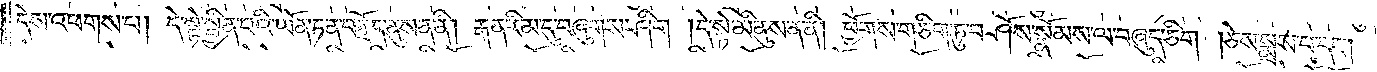དེས་འཕགས་པ། དེ་སྟེ་སྦྱིན་པའི་ཡོན་ཏན་བརྗོད་ནུས་ན་ནི། རྒན་རིམ་དུ་བཞུགས་ཤིག །དེ་སྟེ་མི་ནུས་ན་ནི། ཕྱོགས་གཅིག་ཏུ་བཤོས་སྣོམས་ལ་བཞུད་ཅིག །ཅེས་སྨྲས་པ་དང༌།
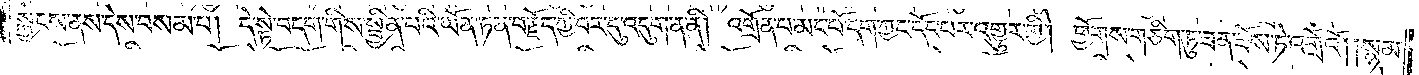སྐྱེངས་ནས་དེས་བསམ་པ། དེ་སྟེ་བདག་གིས་སྦྱིན་པའི་ཡོན་ཏན་བརྗོད་ཀྱི་བར་དུ་འདུག་ན་ནི། འགྲོན་པ་མང་པོ་དག་ཀྱང་དོང་བར་འགྱུར་གྱི། ཕྱོགས་གཅིག་ཏུ་ཟན་ཟོས་ཏེ་འགྲོའོ། །སྙམ་
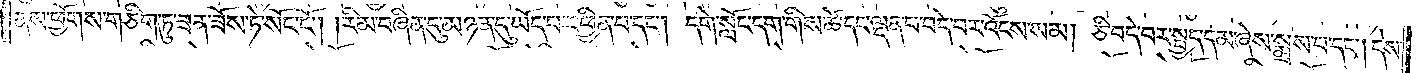ནས་ཕྱོགས་གཅིག་ཏུ་ཟན་ཟོས་ཏེ་སོང་ངོ༌། །རིམ་བཞིན་དུ་མཉན་དུ་ཡོད་པར་ཕྱིན་པ་དང༌། དགེ་སློང་དག་གིས་ཚེ་དང་ལྡན་པ་བདེ་བར་འོངས་སམ། ཅི་བདེ་བར་སྤྱད་དམ་ཞེས་སྨྲས་པ་དང༌། དེས་
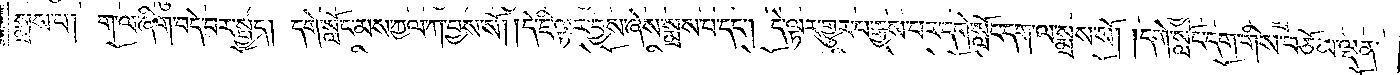སྨྲས་པ། ག་ལ་ཞིག་བདེ་བར་སྤྱད། དགེ་སློང་མས་ཀྱལ་ཀ་བྱས་སོ། །དེ་ཇི་ལྟར་བྱས་ཞེས་སྨྲས་པ་དང༌། དེ་ལྟར་གྱུར་པ་རྒྱས་པར་དགེ་སློང་དག་ལ་སྨྲས་སོ། །དགེ་སློང་དག་གིས་བཅོམ་ལྡན་
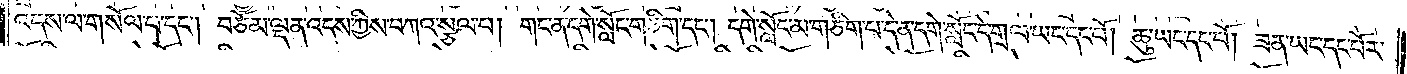འདས་ལ་གསོལ་པ་དང༌། བཅོམ་ལྡན་འདས་ཀྱིས་བཀའ་སྩལ་པ། གང་ན་དགེ་སློང་གཅིག་དང༌། དགེ་སློང་མ་གཅིག་པ་དེ་ན་དགེ་སློང་དེ་གྲལ་ཡང་དང་པོ། ཆུ་ཡང་དང་པོ། ཟན་ཡང་དང་པོར་
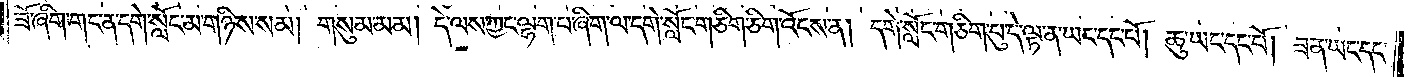ཟོ་ཞིག་གང་ན་དགེ་སློང་མ་གཉིས་སམ། གསུམ་མམ། དེ་ལས་ཀྱང་ལྷག་པ་ཞིག་ལ་དགེ་སློང་གཅིག་ཅིག་འོངས་ན། དགེ་སློང་གཅིག་པུ་དེ་ལྟ་ན་ཡང་དང་པོ། ཆུ་ཡང་དང་པོ། ཟན་ཡང་དང་
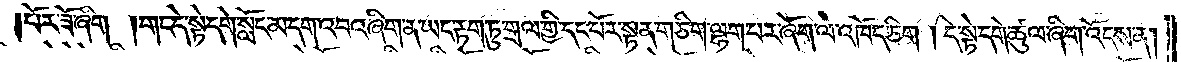པོར་ཟོ་ཞིག །གང་དེ་སྟེ་དགེ་སློང་མ་དག་འབའ་ཞིག་ན་ཡང་རྟག་ཏུ་གྲལ་གྱི་དང་པོར་སྟན་གཅིག་ལྷག་པར་ཞོག་ལ་འཁོད་ཅིག །དེ་སྟེ་དགེ་ཚུལ་ཞིག་འོངས་ན།
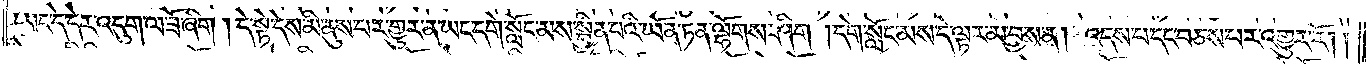ཡང་དེ་དེར་འདུག་ལ་ཟོ་ཞིག །དེ་སྟེ་དེས་མི་ནུས་པར་གྱུར་ན་ཡང་དགེ་སློང་མས་སྦྱིན་པའི་ཡོན་ཏན་ལྷོགས་ཤིག །དགེ་སློང་མས་དེ་ལྟར་མ་བྱས་ན། འདས་པ་དང་བཅས་པར་འགྱུར་རོ། །
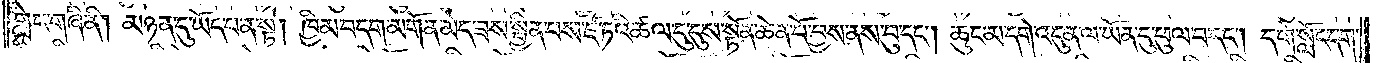གླེང་གཞི་ནི། མཉན་དུ་ཡོད་པ་ན་སྟེ། ཁྱིམ་བདག་མགོན་མེད་ཟས་སྦྱིན་པས་ཛེ་ཏའི་ཚལ་དུ་དུས་སྟོན་ཆེན་པོ་བྱས་ནས་བུ་དང༌། ཆུང་མ་དགེ་འདུན་ལ་ཡོན་དུ་ཕུལ་བ་དང༌། དགེ་སློང་དག་
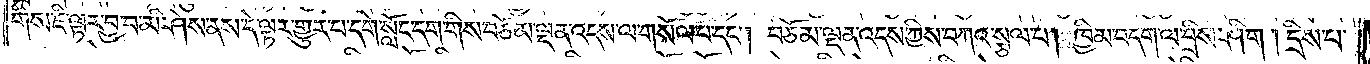གིས་ཇི་ལྟར་བྱ་བ་མི་ཤེས་ནས་དེ་ལྟར་གྱུར་པ་དགེ་སློང་དག་གིས་བཅོམ་ལྡན་འདས་ལ་གསོལ་པ་དང༌། བཅོམ་ལྡན་འདས་ཀྱིས་བཀའ་སྩལ་པ། ཁྱིམ་བདག་ལ་བྲིས་ཤིག །དྲིས་པ་
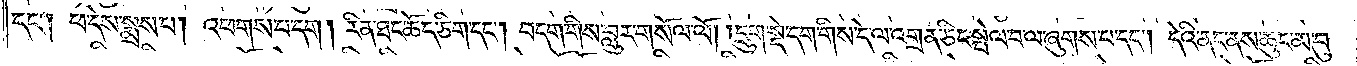དང༌། ཕ་དེས་སྨྲས་པ། འཕགས་པ་དག །རིན་ཐང་ཆོད་ཅིག་དང༌། བདག་གིས་བླུར་གསོལ་ལོ། །དྲུག་སྡེ་དག་གིས་དེ་ལ་འགྲན་ཅིང་སྤེལ་བ་ལ་ཞུགས་པ་དང༌། དེའི་ནང་ནས་ཆུང་མ་བུ་
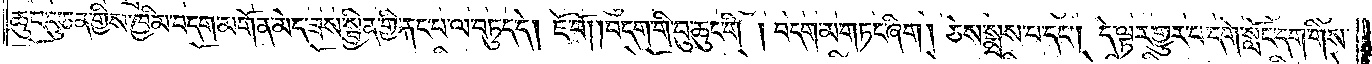ཆུང་དུ་ཅན་གྱིས་ཁྱིམ་བདག་མགོན་མེད་ཟས་སྦྱིན་གྱི་རྐང་པ་ལ་བཏུད་དེ། ཇོ་བོ། །བདག་གི་བུ་ཆུང་གི །བདག་མ་གཏང་ཞིག །ཅེས་སྨྲས་པ་དང༌། དེ་ལྟར་གྱུར་པ་དགེ་སློང་དག་གིས་
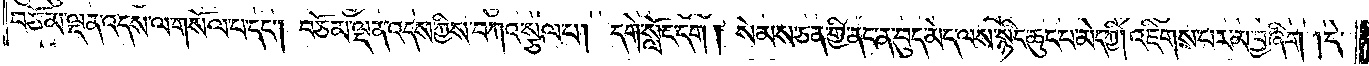བཅོམ་ལྡན་འདས་ལ་གསོལ་པ་དང༌། བཅོམ་ལྡན་འདས་ཀྱིས་བཀའ་སྩལ་པ། དགེ་སློང་དག། སེམས་ཅན་གྱི་ནང་ན་བུད་མེད་ལས་སྙིང་ཆུང་པ་མེད་ཀྱི། འཇིགས་པར་མ་བྱ་ཞིག །དེ་
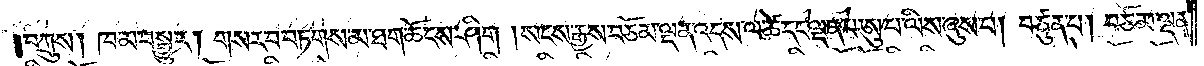བཀྲུས། ཁ་མ་བསྒྱུར། གསར་བ་བཏགས་མ་ཐག་ཆོངས་ཤིག །སངས་རྒྱས་བཅོམ་ལྡན་འདས་ལ་ཚེ་དང་ལྡན་པ་མུ་པ་ལས་ཞུས་པ། བཙུན་པ། བཅོམ་ལྡན་
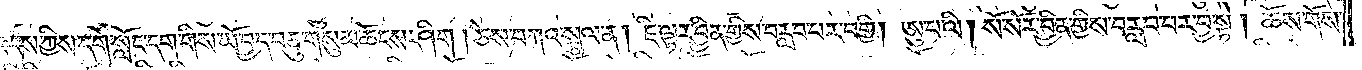འདས་ཀྱིས་དགེ་སློང་དག་གིས་ཡོ་བྱད་བཅུ་གསུམ་ཆོངས་ཤིག །ཅེས་བཀའ་སྩལ་ན། ཇི་ལྟར་བྱིན་གྱིས་བརླབ་པར་བགྱི། ཨུ་པ་ལི། སོ་སོར་བྱིན་གྱིས་བརླབ་པར་བྱ་སྟེ། ཆོས་གོས་
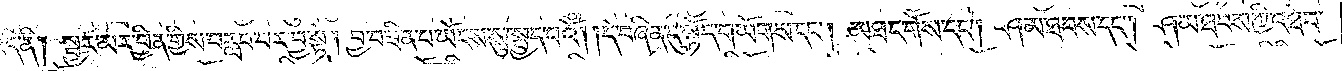འདི་ནི། སྦྱར་མར་བྱིན་གྱིས་བརླབ་པར་བྱ་སྟེ། བྱ་བ་ཟིན་པ་ཡོངས་སུ་སྤྱད་པའོ། །དེ་བཞིན་དུ་སྟོད་གཡོགས་དང༌། མཐང་གོས་དང༌། ཤམ་ཐབས་དང༌། ཤམ་ཐབས་ཀྱི་འཐེབ་
